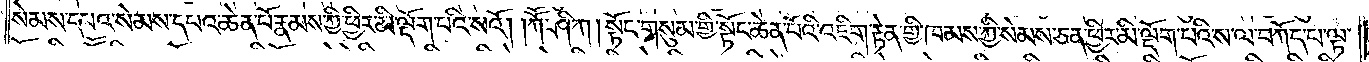སེམས་དཔའ་སེམས་དཔའ་ཆེན་པོ་རྣམས་ཀྱི་ཕྱིར་མི་ལྡོག་པའི་སའོ། །ཀཽ་ཤི་ཀ། སྟོང་གསུམ་གྱི་སྟོང་ཆེན་པོའི་འཇིག་རྟེན་གྱི་ཁམས་ཀྱི་སེམས་ཅན་ཕྱིར་མི་ལྡོག་པའི་ས་ལ་བཀོད་པ་ལྟ་
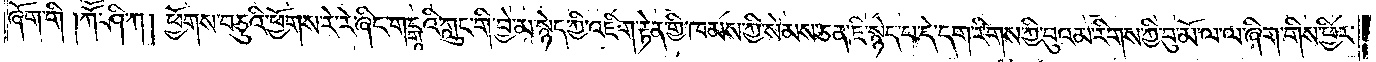ཞོག་གི །ཀཽ་ཤི་ཀ། ཕྱོགས་བཅུའི་ཕྱོགས་རེ་རེ་ཞིང་གངྒཱའི་ཀླུང་གི་བྱེ་མ་སྙེད་ཀྱི་འཇིག་རྟེན་གྱི་ཁམས་ཀྱི་སེམས་ཅན་ཇི་སྙེད་པ་དེ་དག་རིགས་ཀྱི་བུའམ་རིགས་ཀྱི་བུ་མོ་ལ་ལ་ཞིག་གིས་ཕྱིར་
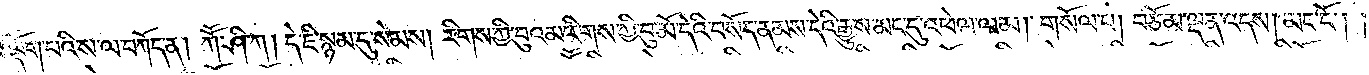མི་ལྡོག་པའི་ས་ལ་བཀོད་ན། ཀཽ་ཤི་ཀ། དེ་ཇི་སྙམ་དུ་སེམས། རིགས་ཀྱི་བུའམ་རིགས་ཀྱི་བུ་མོ་དེའི་བསོད་ནམས་དེའི་རྒྱུས་མང་དུ་འཕེལ་ལམ། གསོལ་པ། བཅོམ་ལྡན་འདས། མང་ངོ༌། །
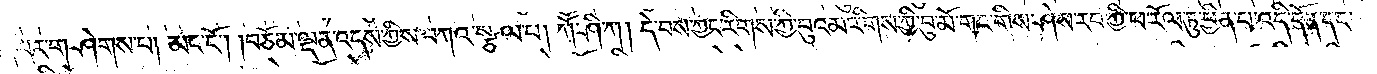བདེ་བར་གཤེགས་པ། མང་ངོ༌། །བཅོམ་ལྡན་འདས་ཀྱིས་བཀའ་སྩལ་པ། ཀཽ་ཤི་ཀ། དེ་བས་ཀྱང་རིགས་ཀྱི་བུའམ་རིགས་ཀྱི་བུ་མོ་གང་གིས་ཤེས་རབ་ཀྱི་ཕ་རོལ་ཏུ་ཕྱིན་པ་འདི་དོན་དང་
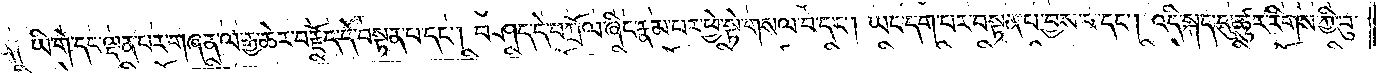ལྡན༑ ཡི་གེ་དང་ལྡན་པར་གཞན་ལ་རྒྱ་ཆེར་བརྗོད་དེ་བསྟན་པ་དང༌། བཤད་དེ་བཀྲོལ་ཞིང་རྣམ་པར་ཕྱེ་སྟེ་གསལ་བ་དང༌། ཡང་དག་པར་བསྟན་པ་བྱས་པ་དང༌། འདི་སྐད་དུ་ཚུར་རིགས་ཀྱི་བུ་
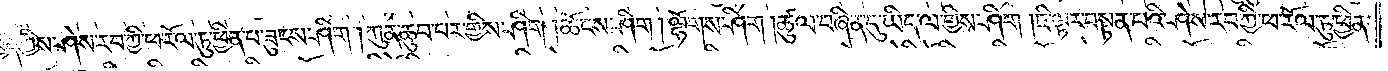ཁྱོད་ཀྱིས་ཤེས་རབ་ཀྱི་ཕ་རོལ་ཏུ་ཕྱིན་པ་ཟུངས་ཤིག །ཀུན་ཆུབ་པར་གྱིས་ཤིག །ཆོངས་ཤིག། ལྷོགས་ཤིག །ཚུལ་བཞིན་དུ་ཡིད་ལ་གྱིས་ཤིག །ཇི་ལྟར་བསྟན་པའི་ཤེས་རབ་ཀྱི་ཕ་རོལ་ཏུ་ཕྱིན་
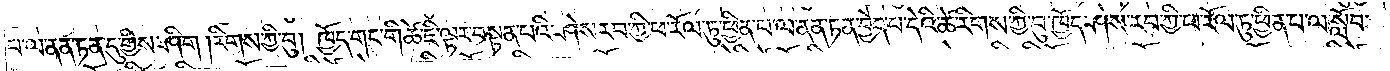པ་ལ་ནན་ཏན་དུ་གྱིས་ཤིག །རིགས་ཀྱི་བུ། ཁྱོད་གང་གི་ཚེ་ཇི་ལྟར་བསྟན་པའི་ཤེས་རབ་ཀྱི་ཕ་རོལ་ཏུ་ཕྱིན་པ་ལ་ནན་ཏན་བྱེད་པ་དེའི་ཚེ་རིགས་ཀྱི་བུ་ཁྱོད་ཤེས་རབ་ཀྱི་ཕ་རོལ་ཏུ་ཕྱིན་པ་ལ་སློབ་
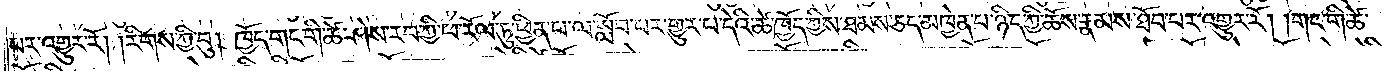པར་འགྱུར་རོ། །རིགས་ཀྱི་བུ། ཁྱོད་གང་གི་ཚེ་ཤེས་རབ་ཀྱི་ཕ་རོལ་ཏུ་ཕྱིན་པ་ལ་སློབ་པར་གྱུར་པ་པའི་ཚེ་ཁྱོད་ཀྱིས་ཐམས་ཅད་མཁྱེན་པ་ཉིད་ཀྱི་ཆོས་རྣམས་ཐོབ་པར་འགྱུར་རོ། །གང་གི་ཚེ་
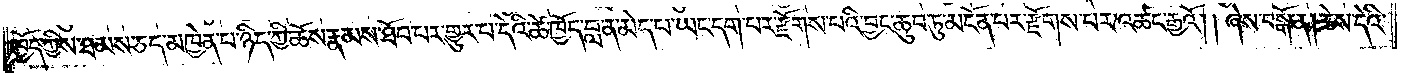ཁྱོད་ཀྱིས་ཐམས་ཅད་མཁྱེན་པ་ཉིད་ཀྱི་ཆོས་རྣམས་ཐོབ་པར་གྱུར་པ་དེའི་ཚེ་ཁྱོད་བླ་ན་མེད་པ་ཡང་དག་པར་རྫོགས་པའི་བྱང་ཆུབ་ཏུ་མངོན་པར་རྫོགས་པར་འཚང་རྒྱའོ། །ཞེས་བསྒོ་ན། ཆེས་དེའི་
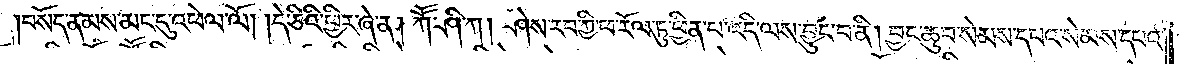བསོད་ནམས་མང་དུ་འཕེལ་ལོ། །དེ་ཅིའི་ཕྱིར་ཞེ་ན། ཀཽ་ཤི་ཀ། ཤེས་རབ་ཀྱི་ཕ་རོལ་ཏུ་ཕྱིན་པ་འདི་ལས་བྱུང་བ་ནི། བྱང་ཆུབ་སེམས་དཔའ་སེམས་དཔའ་
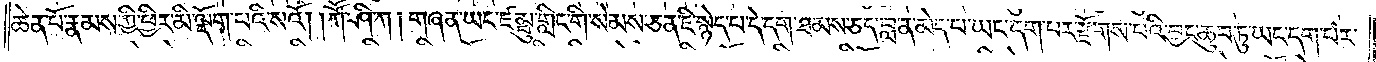ཆེན་པོ་རྣམས་ཀྱི་ཕྱིར་མི་ལྡོག་པའི་སའོ། །ཀཽ་ཤི་ཀ། གཞན་ཡང་ཛམྦུ་གླིང་གི་སེམས་ཅན་ཇི་སྙེད་པ་དེ་དག་ཐམས་ཅད་བླ་ན་མེད་པ་ཡང་དག་པར་རྫོགས་པའི་བྱང་ཆུབ་ཏུ་ཡང་དག་པར་
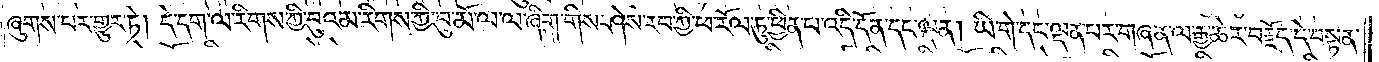ཞུགས་པར་གྱུར་ཏེ། དེ་དག་ལ་རིགས་ཀྱི་བུའམ་རིགས་ཀྱི་བུ་མོ་ལ་ལ་ཞིག་གིས་ཤེས་རབ་ཀྱི་ཕ་རོལ་ཏུ་ཕྱིན་པ་འདི་དོན་དང་ལྡན། ཡི་གེ་དང་ལྡན་པར་གཞན་ལ་རྒྱ་ཆེར་བརྗོད་དེ་བསྟན་
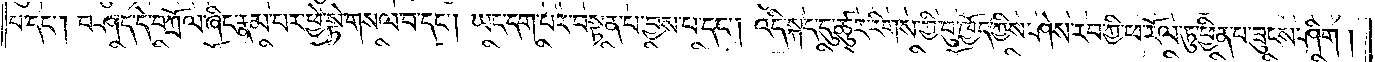པ་དང༌། བཤད་དེ་བཀྲོལ་ཞིང་རྣམ་པར་ཕྱེ་སྟེ་གསལ་བ་དང༌། ཡང་དག་པར་བསྟན་པ་བྱས་པ་དང༌། འདི་སྐད་དུ་ཚུར་རིགས་ཀྱི་བུ་ཁྱོད་ཀྱིས་ཤེས་རབ་ཀྱི་ཕ་རོལ་ཏུ་ཕྱིན་པ་ཟུངས་ཤིག །
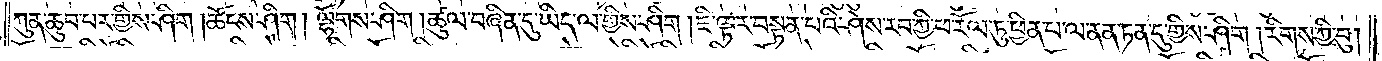ཀུན་ཆུབ་པར་གྱིས་ཤིག །ཆོངས་ཤིག། ལྷོགས་ཤིག །ཚུལ་བཞིན་དུ་ཡིད་ལ་གྱིས་ཤིག །ཇི་ལྟར་བསྟན་པའི་ཤེས་རབ་ཀྱི་ཕ་རོལ་ཏུ་ཕྱིན་པ་ལ་ནན་ཏན་དུ་གྱིས་ཤིག །རིགས་ཀྱི་བུ།
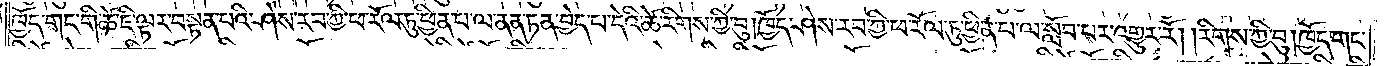ཁྱོད་གང་གི་ཚེ་ཇི་ལྟར་བསྟན་པའི་ཤེས་རབ་ཀྱི་ཕ་རོལ་ཏུ་ཕྱིན་པ་ལ་ནན་ཏན་བྱེད་པ་དེའི་ཚེ་རིགས་ཀྱི་བུ། ཁྱོད་ཤེས་རབ་ཀྱི་ཕ་རོལ་ཏུ་ཕྱིན་པ་ལ་སློབ་པར་འགྱུར་རོ། །རིགས་ཀྱི་བུ། ཁྱོད་གང་
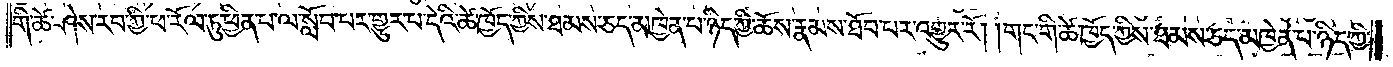གི་ཚེ་ཤེས་རབ་ཀྱི་ཕ་རོལ་ཏུ་ཕྱིན་པ་ལ་སློབ་པར་གྱུར་པ་དེའི་ཚེ་ཁྱོད་ཀྱིས་ཐམས་ཅད་མཁྱེན་པ་ཉིད་ཀྱི་ཆོས་རྣམས་ཐོབ་པར་འགྱུར་རོ། །གང་གི་ཚེ་ཁྱོད་ཀྱིས་ཐམས་ཅད་མཁྱེན་པ་ཉིད་ཀྱི་
